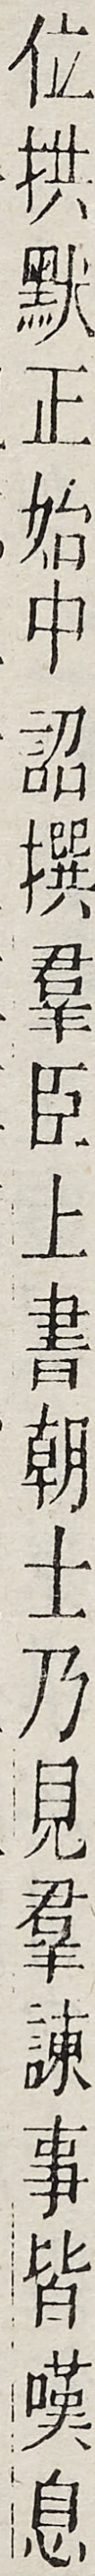位拱默正始中詔撰群臣上書朝士乃見群諫事皆嘆息
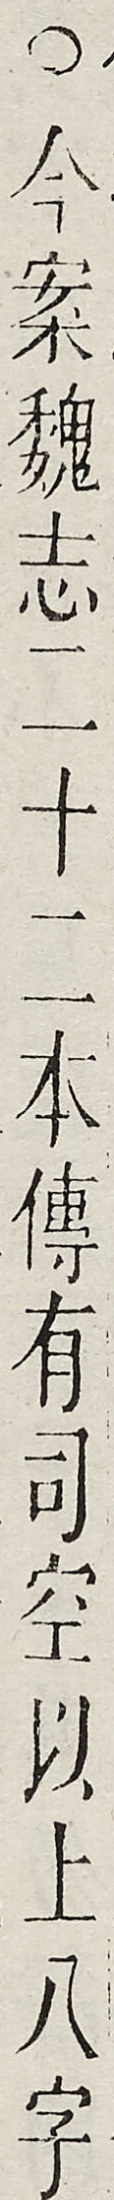○今案魏志二十二本傳有司空以上八字
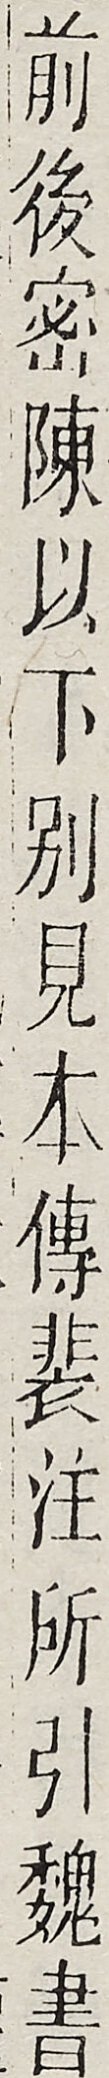前後密陳以下別見尤傳裴注所引魏書
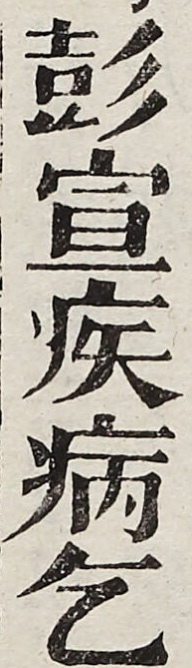彭宣疾病乞
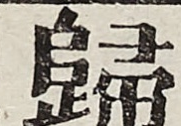歸
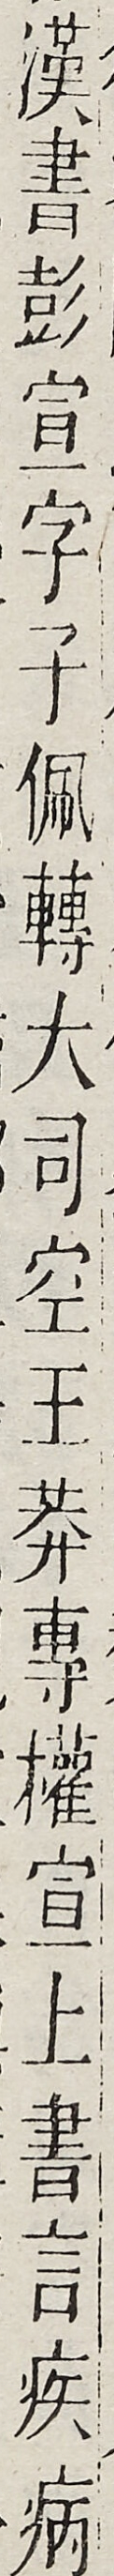漢書彭宣字子佩轉大司空王莽專權宣上書有疾病
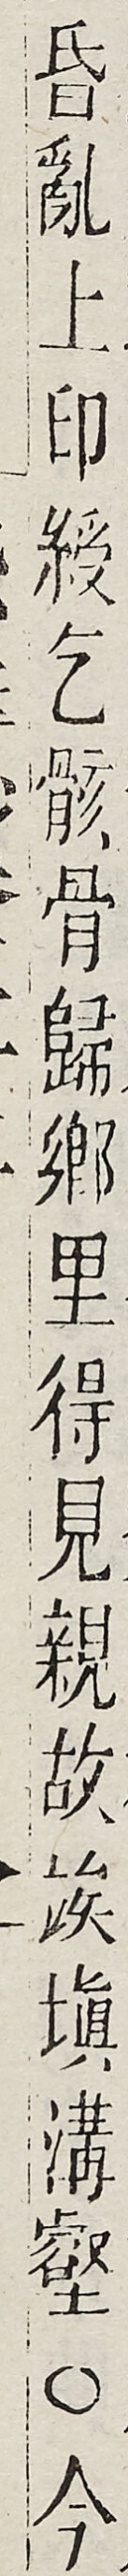昏亂上印綬乞骸骨歸鄉里得見親故竢填溝壑○今
